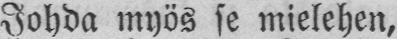Johda myös se mielehen,
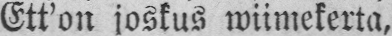Ett'on joskus wiimekerta,
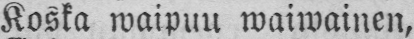Koska waipuu waiwainen,
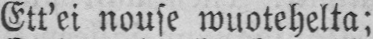Ett'ei nouse wuotehelta;
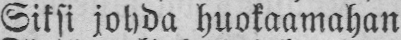Siksi johda huokaamahan
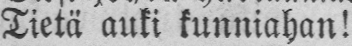Tietä auki kunniahan!
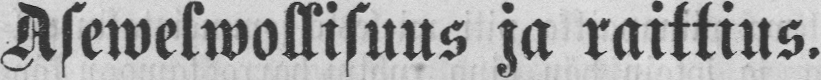Asewelwollisuus ja raittius.
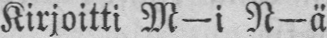Kirjoitti M—i N—ä.
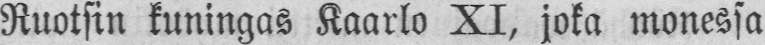Ruotsin kuningas Kaarlo XI, joka monessa
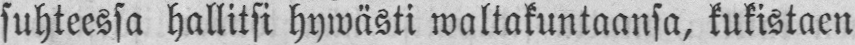suhteessa hallitsi hywästi waltakuntaansa, kukistaen
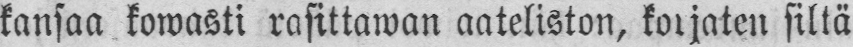kansaa kowasti rasittawan aateliston, korjaten siltä
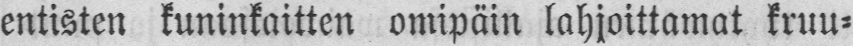entisten kuninkaitten omipäin lahjoittamat kruu-
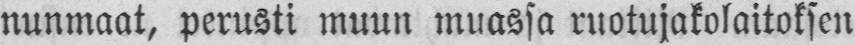nunmaat, perusti muun muassa ruotujakolaitoksen
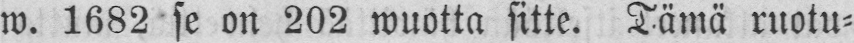w. 1682 se on 202 wuotta sitte. Tämä ruotu-
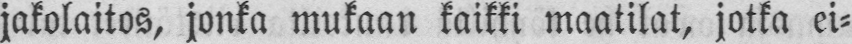jakolaitos, jonka mukaan kaikki maatilat, jotka el-
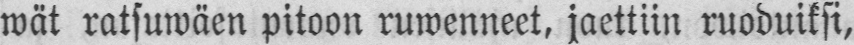wät ratsuwäen pitoon ruwenneet, jaettiin ruoduiksi,
